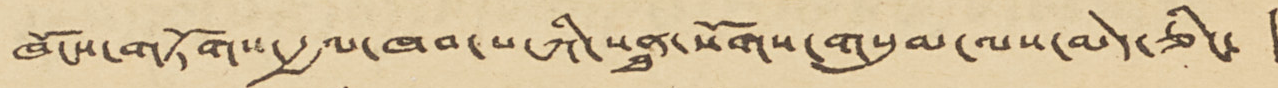ཁོངས་གཏོགས་རྒྱལ་ཁབ་པ་ཀི་སནྠ་སོགས་གསུམ་ལས་མེད་ཅིང་ །
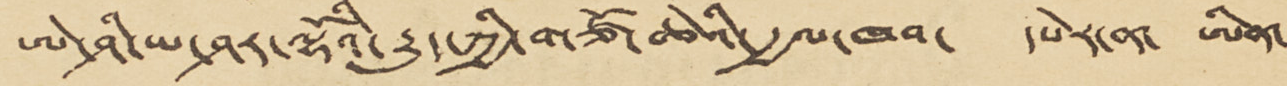ཨེ་ཤི་ཡ་ཤར་ལྷོའི་རྒྱུད་ཀྱི་གཙོ་ཆེའི་རྒྱལ་ཁབ་ དཔེར་ན་ ཨིན་
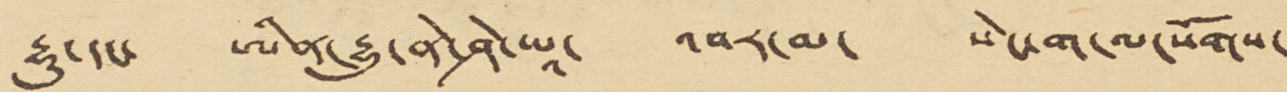རྷུ་དང་ ཨིན་རྷུ་ནེ་ཤེ་ཡཱ་ འབར་མ་ སེང་ག་ལ་སོགས་
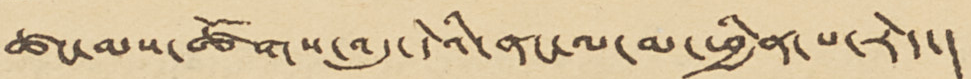ཚང་མས་ཚོགས་འདུ་དེའི་ནང་ལ་མ་ཕྱིན་པ་རེད་།
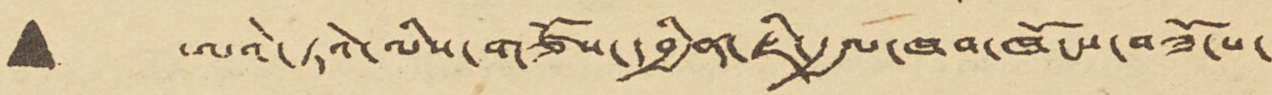• ཨའེ་ཏའེ་ལིས་གཙོས་དབྱིན་ཇི་རྒྱལ་ཁབ་ཁོངས་བཟོ་པ་
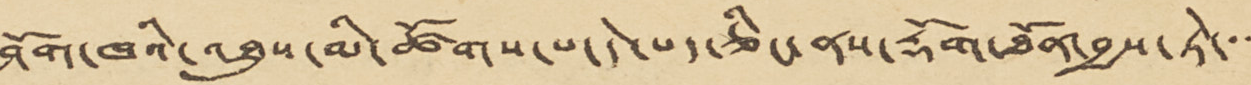ཤོག་ཁའི་འཐུས་མི་ཚོགས་པ་དེ་པད་ཅིང་ནས་རྡོག་ཐོན་བྱས་ཏེ་་་་
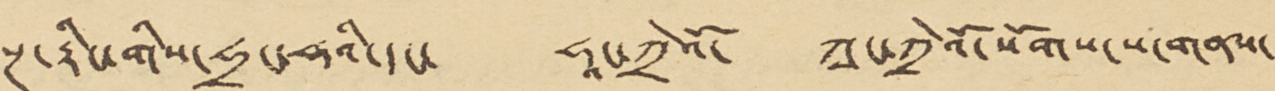སྔ་རྟིང་གིས་ཧྲང་ཧའི་དང་ ཧཱང་ཀྲེའོ་ ཀྭང་ཀྲེའོ་སོགས་ས་གནས་
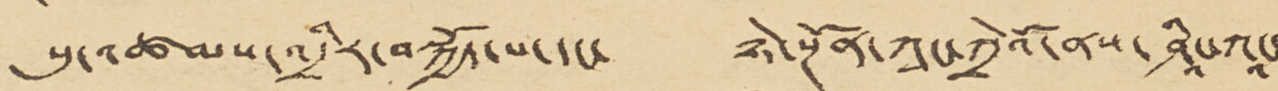སུ་འཚམས་འདྲིར་བསྐྱོད་པ་དང་ ཉེ་སྔོན་ཀྭང་ཀྲེའོ་ནས་ ཤཱིང་ཀཱང་
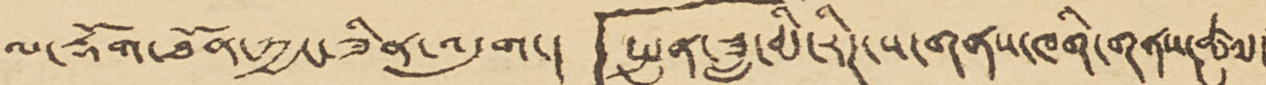ལ་རྡོག་ཐོན་ཀྱང་ཟིན་འདུག་། 「སྤུན་ཟླ་མི་རིཊ་ས་གནས་ཁགི་གནས་ཚུལ་」
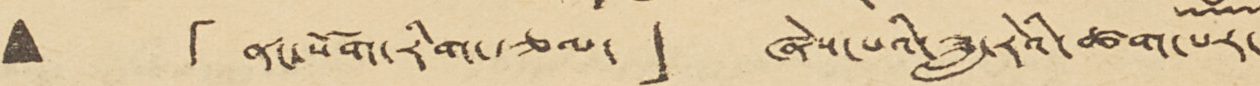• 「ནང་སོག་རིག་རྩལ་」 ཞེས་པའི་ཟླ་རེའི་ཚག་པར་
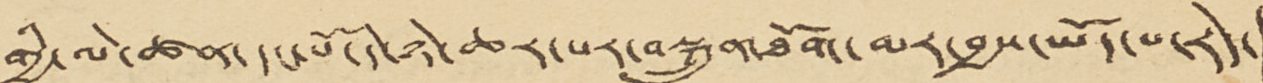གྱི་ལེ་ཚན་དང་པོ་དེ་ཉེ་ཆར་པར་བསྐྲུན་ཐོག་མར་བྱས་ཡོད་པ་རེད་།
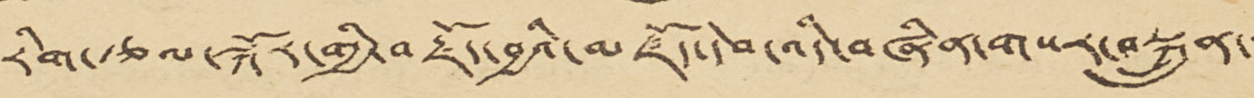རིག་རྩལ་སྐོར་གྱི་བརྗོད་བྱའི་མཛོད་དེབ་འདི་བཞིན་གསར་བསྐྲུན་་་
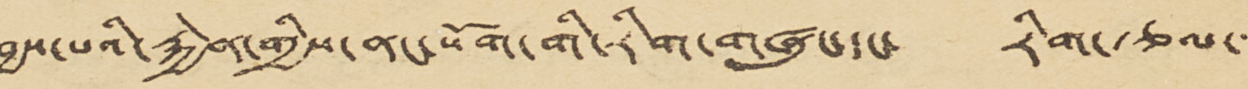བྱས་པའི་རྐྱེན་གྱིས་ནང་སོག་གི་རིག་གཞུང་དང་ རིག་རྩལ་་་
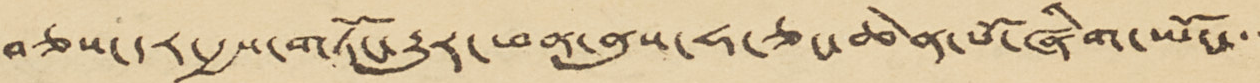བཅས་དར་རྒྱས་གཏོང་རྒྱུར་ཕན་ནུས་ཧ་ཅང་ཆེན་པོ་ཞིག་ཡོང་་་
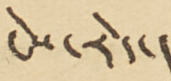ངེས་རེད་།
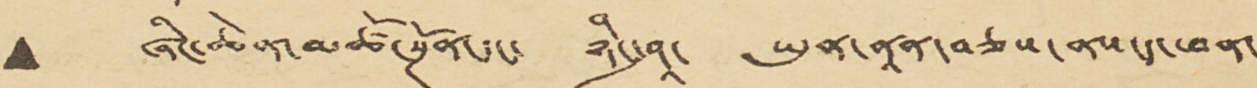• ཞིང་ཆེན་མཚོ་སྔོན་དང་ ཉིང་ཤཱ་ ཡུན་ནཱན་བཅས་ནས་ད་ཕན་
